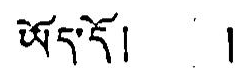ཡོད་དོ། །
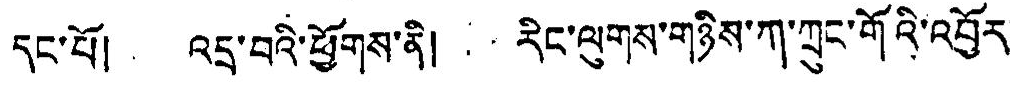དང་པོ། འདྲ་བའི་ཕྱོགས་ནི། རིང་ལུགས་གཉིས་ཀ་ཀྲུང་གོའི་འབྱོར་
